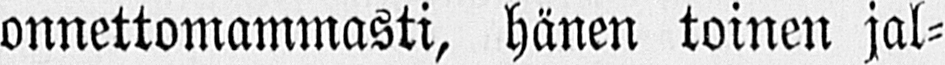onnettomammasta, hänen toinen jal-
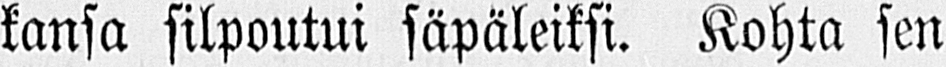kansa silpoutui säpäleiksi. Kohta sen
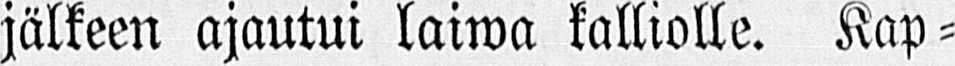jälkeen ajautui laiwa kalliolle. Kap-
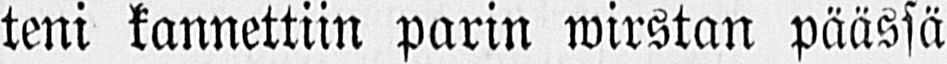teni kannettiin parin wirstan päässä
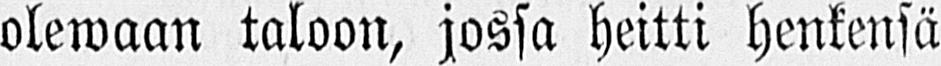olewaan taloon, jossa heitti henkensä
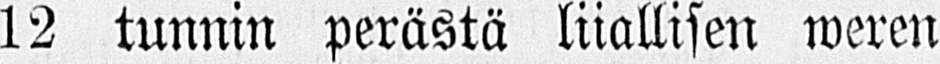12 tunnin perästä liiallisen weren
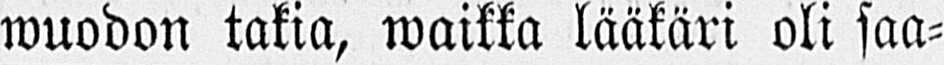wuodon takia, waikka lääkäri oli saa-
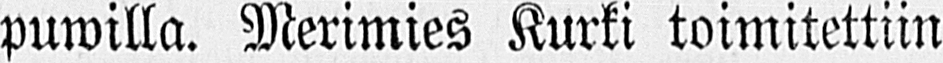puwilla. Merimies Kurki toimitettiin
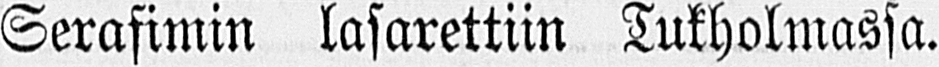Serafimin lasarettiin Tukholmassa.
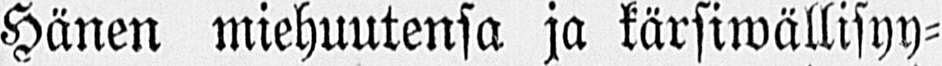Hänen miehuutensa ja kärsiwällisyy-
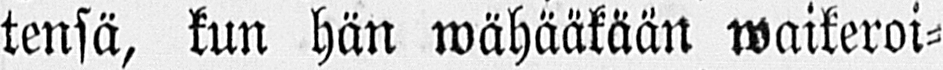tensä, kun hän wähääkään waikeroi-
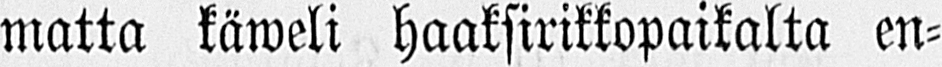matta käweli haaksirikkopaikalta en-
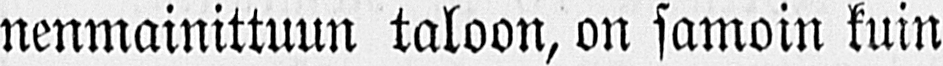nenmainittuun taloon, on samoin kuin
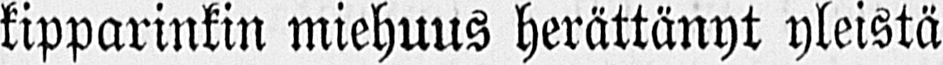kipparinkin miehuus herättänyt yleistä
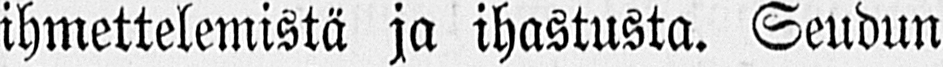ihmettelemistä ja ihastusta. Seudun
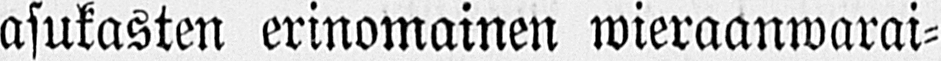asukasten erinomainen wieraanwarai-
